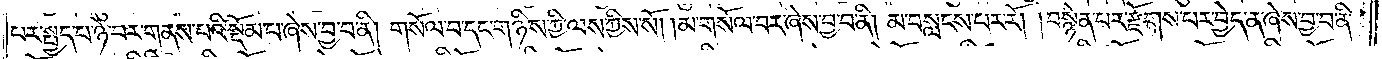པར་སྤྱད་པ་ཉེ་བར་གནས་པའི་སྡོམ་པ་ཞེས་བྱ་བ་ནི། གསོལ་བ་དང་གཉིས་ཀྱི་ལས་ཀྱིས་སོ། །མ་གསོལ་བར་ཞེས་བྱ་བ་ནི། མ་བསླངས་པར་རོ། །བསྙེན་པར་རྫོགས་པར་བྱེད་ན་ཞེས་བྱ་བ་ནི་
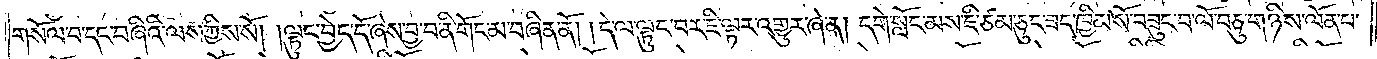གསོལ་བ་དང་བཞིའི་ལས་ཀྱིས་སོ། །ལྟུང་བྱེད་དོ་ཞེས་བྱ་བ་ནི་གོང་མ་བཞིན་ནོ། །དེ་ལ་ལྟུང་བར་ཇི་ལྟར་འགྱུར་ཞེ་ན། དགེ་སློང་མས་ཇི་ཙམ་ཅུང་ཟད་ཁྱིམ་སོ་བཟུང་བ་ལོ་བཅུ་གཉིས་ལོན་པ་
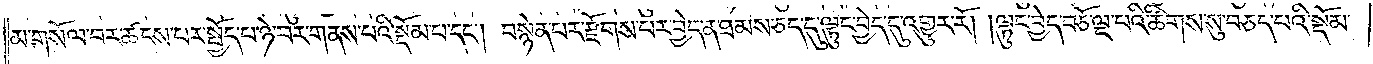མ་གསོལ་བར་ཚངས་པར་སྤྱོད་པ་ཉེ་བར་གནས་པའི་སྡོམ་པ་དང༌། བསྙེན་པར་རྫོགས་པར་བྱེད་ན་ཐམས་ཅད་དུ་ལྟུང་བྱེད་དུ་འགྱུར་རོ། །ལྟུང་བྱེད་བཅོ་ལྔ་པའི་ཚིགས་སུ་བཅད་པའི་སྡོམ་
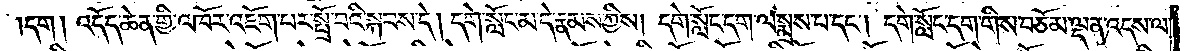དག །འདོད་ཆེན་གྱི་འཁོར་འཇོག་པར་སྤྲོ་བའི་སྐབས་དེ། དགེ་སློང་མ་དེ་རྣམས་ཀྱིས། དགེ་སློང་དག་ལ་སྨྲས་པ་དང༌། དགེ་སློང་དག་གིས་བཅོམ་ལྡན་འདས་ལ་
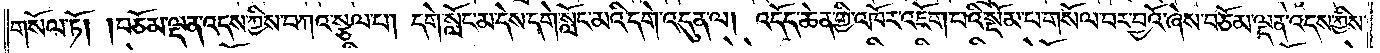གསོལ་ཏོ། །བཅོམ་ལྡན་འདས་ཀྱིས་བཀའ་སྩལ་པ། དགེ་སློང་མ་དེས་དགེ་སློང་མའི་དགེ་འདུན་ལ། འདོད་ཆེན་གྱི་འཁོར་འཇོག་པའི་སྡོམ་པ་གསོལ་བར་བྱའོ་ཞེས་བཅོམ་ལྡན་འདས་ཀྱིས་
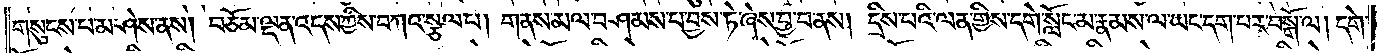གསུངས་པ་མ་ཤེས་ནས། བཅོམ་ལྡན་འདས་ཀྱིས་བཀའ་སྩལ་པ། གནས་མལ་བཤམས་པ་བྱས་ཏེ་ཞེས་བྱ་བ་ནས། དྲིས་པའི་ལན་གྱིས་དགེ་སློང་མ་རྣམས་ལ་ཡང་དག་པར་བསྒོ་ལ། དགེ་
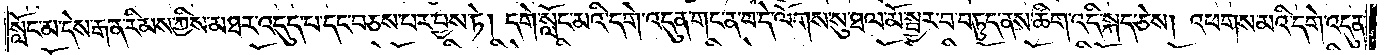སློང་མ་དེས་རྒན་རིམས་ཀྱིས་མཐར་འདུད་པ་དང་བཅས་པར་བྱས་ཏེ། དགེ་སློང་མའི་དགེ་འདུན་གང་ན་བ་དེ་ལོགས་སུ་ཐལ་མོ་སྦྱར་བ་བཏུད་ནས་ཚིག་འདི་སྐད་ཅེས། འཕགས་མའི་དགེ་འདུན་
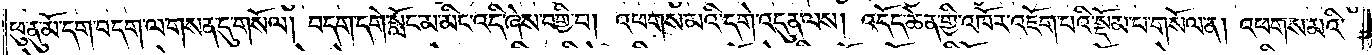ཕུ་ནུ་མོ་དག་བདག་ལ་གསན་དུ་གསོལ། བདག་དགེ་སློང་མ་མིང་འདི་ཞེས་བགྱི་བ། འཕགས་མའི་དགེ་འདུན་ལས། འདོད་ཆེན་གྱི་འཁོར་འཇོག་པའི་སྡོམ་པ་གསོལ་ན། འཕགས་མའི་
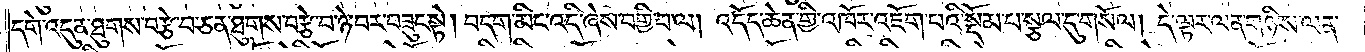དགེ་འདུན་ཐུགས་བརྩེ་བ་ཅན་ཐུགས་བརྩེ་བ་ཉེ་བར་བཟུང་སྟེ། བདག་མིང་འདི་ཞེས་བགྱི་བ་ལ། འདོད་ཆེན་གྱི་འཁོར་འཇོག་པའི་སྡོམ་པ་སྩལ་དུ་གསོལ། དེ་ལྟར་ལན་གཉིས་ལན་
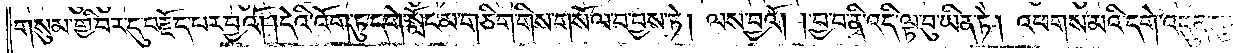གསུམ་གྱི་བར་དུ་བརྗོད་པར་བྱའོ། །དེའི་འོག་ཏུ་དགེ་སློང་མ་གཅིག་གིས་གསོལ་བ་བྱས་ཏེ། ལས་བྱའོ། །བྱ་བ་ནི་འདི་ལྟ་བུ་ཡིན་ཏེ། འཕགས་མའི་དགེ་འདུན་ཕུ་ནུ་མོ་དག་བདག་
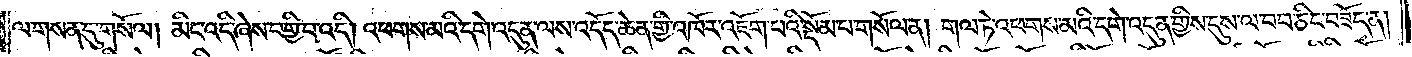ལ་གསན་དུ་གསོལ། མིང་འདི་ཞེས་བགྱི་བ་འདི། འཕགས་མའི་དགེ་འདུན་ལས་འདོད་ཆེན་གྱི་འཁོར་འཇོག་པའི་སྡོམ་པ་གསོལ་ན། གལ་ཏེ་འཕགས་མའི་དགེ་འདུན་གྱིས་དུས་ལ་བབ་ཅིང་བཟོད་ན།
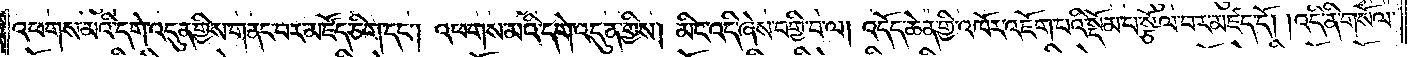འཕགས་མའི་དགེ་འདུན་གྱིས་གནང་བར་མཛོད་ཅིག་དང༌། འཕགས་མའི་དགེ་འདུན་གྱིས། མིང་འདི་ཞེས་བགྱི་བ་ལ། འདོད་ཆེན་གྱི་འཁོར་འཇོག་པའི་སྡོམ་པ་སྩོལ་བར་མཛད་དོ། །འདི་ནི་གསོལ་
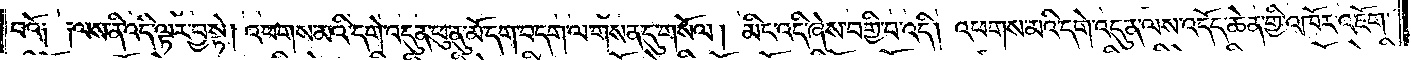བའོ། །ལས་ནི་འདི་ལྟར་བྱ་སྟེ། འཕགས་མའི་དགེ་འདུན་ཕུ་ནུ་མོ་དག་བདག་ལ་གསན་དུ་གསོལ། མིང་འདི་ཞེས་བགྱི་བ་འདི། འཕགས་མའི་དགེ་འདུན་ལས་འདོད་ཆེན་གྱི་འཁོར་འཇོག་
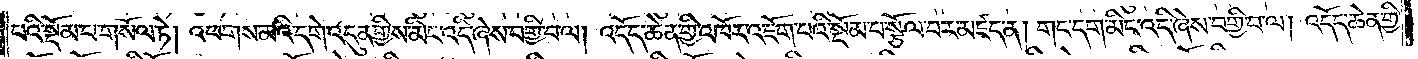པའི་སྡོམ་པ་གསོལ་ཏེ། འཕགས་མའི་དགེ་འདུན་གྱིས་མིང་འདི་ཞེས་བགྱི་བ་ལ། འདོད་ཆེན་གྱི་འཁོར་འཇོག་པའི་སྡོམ་པ་སྩོལ་པར་མཛད་ན། གང་དག་མིང་འདི་ཞེས་བགྱི་བ་ལ། འདོད་ཆེན་གྱི་
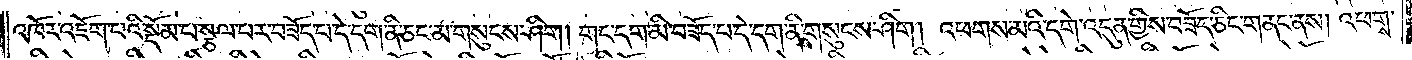འཁོར་འཇོག་པའི་སྡོམ་པ་སྩལ་པར་བཟོད་པ་དེ་དག་ནི་ཅང་མ་གསུངས་ཤིག། གང་དག་མི་བཟོད་པ་དེ་དག་ནི་གསུངས་ཤིག །འཕགས་མའི་དགེ་འདུན་གྱིས་བཟོད་ཅིང་གནང་ནས། འཕགས་
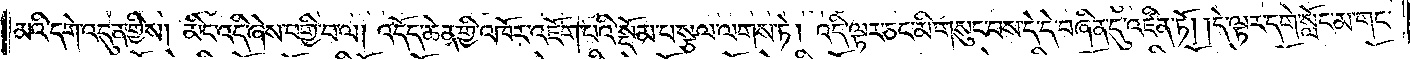མའི་དགེ་འདུན་གྱིས། མིང་འདི་ཞེས་བགྱི་བ་ལ། འདོད་ཆེན་གྱི་འཁོར་འཇོག་པའི་སྡོམ་པ་སྩལ་ལགས་ཏེ། འདི་ལྟར་ཅང་མི་གསུང་བས་དེ་དེ་བཞིན་དུ་འཛིན་ཏོ། །དེ་ལྟར་དགེ་སློང་མ་གང་
